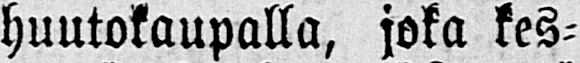Julkisella huutokaupalla, joka kes-
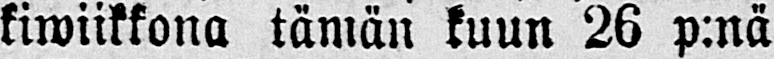kiwiikkona tämän kuun 26 p:nä
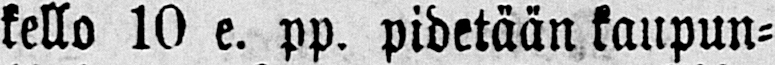kello 10 e. pp. pidetään kaupun-
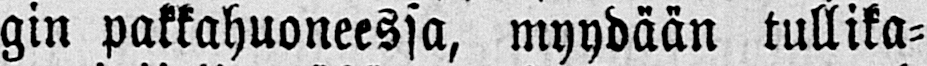gin pakkahuoneessa, myydään tullika-
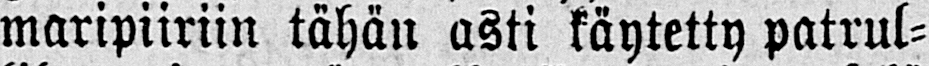maripiiriin tähän asti käytetty patrul-
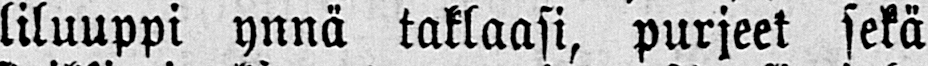liluuppi ynnä taklaasi, purjeet sekä
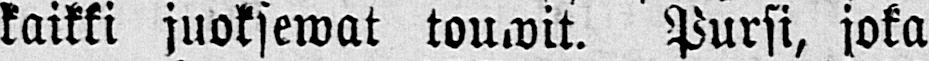kaikki juoksewat touwit. Pursi, joka
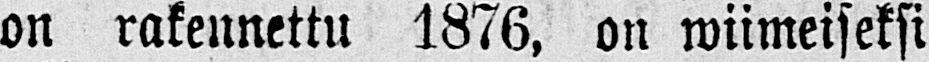on rakennettu 1876, on wiimeiseksi
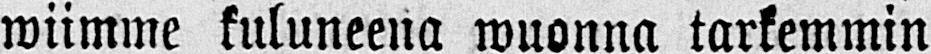wiimme kuluneena wuonna tarkemmin
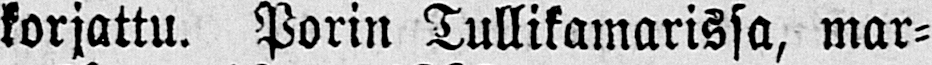korjattu. Porin Tullikamarissa, mar-
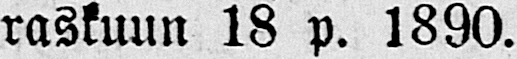raskuun 18 p. 1890.
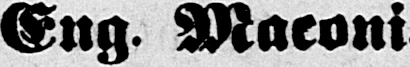Eng. Maeoni.
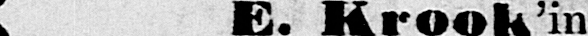E. Krook'in
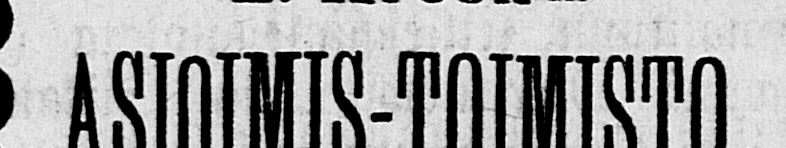ASIOIMIS-TOIMISTO.
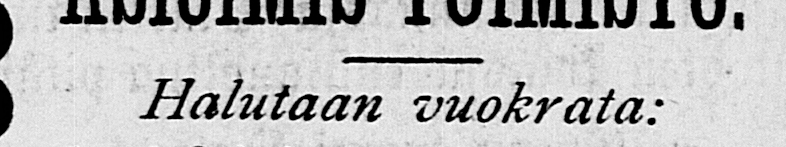Halutaan vuokrata:
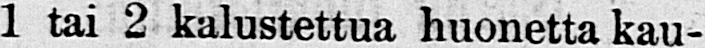1 tai 2 kalustettua huonetta kau-
